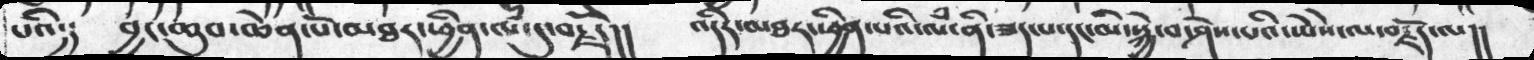པའི༴༴   བྱང་ཆུབ་ཆེན་པོ་མཐར་ཕྱིན་ལཾ་དུ་བརྗོདེ།།  འདིར་མཐར་ཕྱིན་པའི་ལཾ་ནི་ཟད་པ་དང་མི་སྐྱེ་བ་ཤེས་པའི་ཡེསེ་ལ་བརྗོད་ལ།།
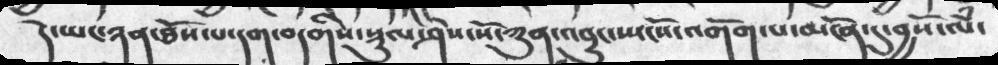དེ་ཡང་ཉན་ཐོས་པ་དག་བདགིས་སྟུལ་ཤེས་སོ་ཀུན་འབྱུང་ཡོངས་འགོག་པ་མངོན་དུ་བྱསོ་ལཾ་
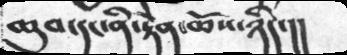ཆུབ་དང་ནི་རྟེན་ཆོས་ཉིད་།།
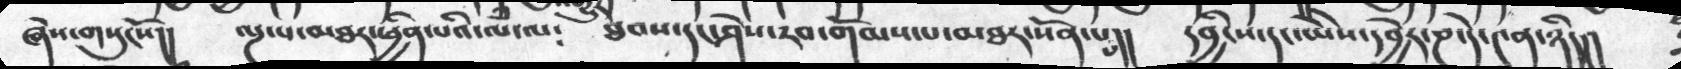ཞེས་གསངསོ།།  ལྔ་པ་མཐར་ཕྱིན་པའི་ལཾ་ལ༴  ཐབས་དང་ཤེས་རབ་གོམས་པ་མཐར་སོན་པས།།  དབྱིངས་དང་ཡེེས་དབྱེར་ཎ་དེ་༤ན་ཉིད།།
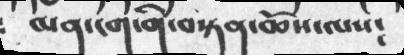མན་ངག་གི་བསྟན་ཆོས་ལས༴
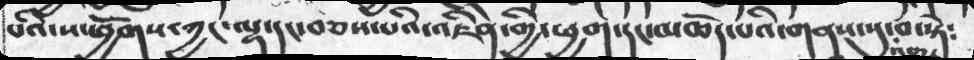པའི་ས་ཕྱོགས་ཀྱང་ལྷ་དང་བཅས་པའི་འཇིེན་གྱི་ཕྱག་དང་མཆོད་པའི་གནས་སུ་འགྱུར་བ་སྟེ༴
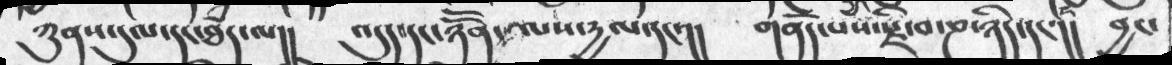ཀུནས་དུལ་དང་ཐཾད་ལ།།  འདུད་དང་ཉོོན་ལས་དྱལ་དང་།།  གནོད་པས་རྫི་བ་ཎ་ཉིད་དང་།།  བྱང་
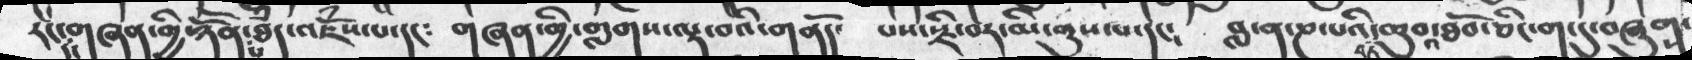རང་དང་གཞན་གྱི་ཉོན་པ་ཐཾད་འཇོཾས་པ་དང༴  གཞན་གྱི་གླགས་ལྟ་བའི་གནོད་  པས་རྫི་བར་མི་ནུས་པ་དང༴  བླ་ན་ཎ་པའི་བྱང་ཆུབ་འཐོབ་ཅིང་ག་དུ་བཞུགས་
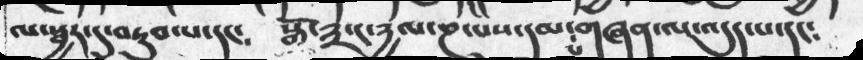ལ་སྦྱར་དུ་བཏུབ་པ་དང༴  སྒོ་༣་ང་དྱལ་ཎ་པས་དམ་པ་གཞན་ལ་འདུད་པ་དང༴
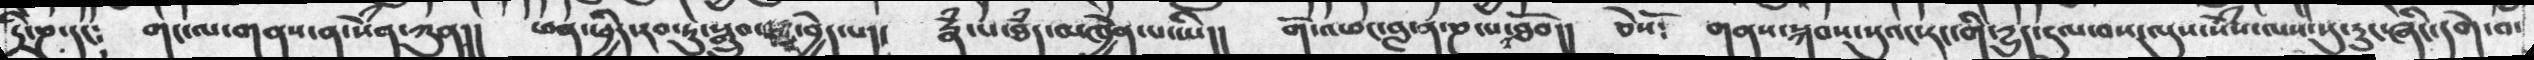དྲི་ཎ་དང༴  གང་ལ་གནས་ན་སེཾན་ཀུན།།  ཕན་ཕྱིར་རབ་ཏུ་སྒྲུབ་པར་བྱེད་པ།།  རྣཾ་པ་ཐཾད་མཁྱེན་པ་ཡི།།  གོ་འཕང་བླ་ན་ཎ་པ་ཐོབ།།  ཅེསོ༴  གནས་སྐབས་སུའང་རང་གི་དྱུད་དུལ་བས་ལུས་སེཾས་ལས་སུ་རུང་ཞིང་དགེ་བ་
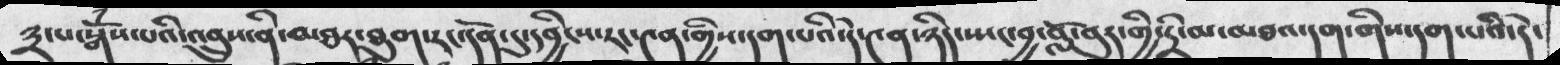༣་པ་སྒོཾས་པའི་འབྲུས་ནི་མཐར་ཐུག་རང་དོན་དུ་དབྱིངས་རང་༤ན་གྱིས་དག་པའི་དེ་༤ན་ཉིད་ཡང་བྱ་བློ་བུར་གྱི་དྲི་མ་མཐའ་དག་གིས་དག་པའི་དེ་
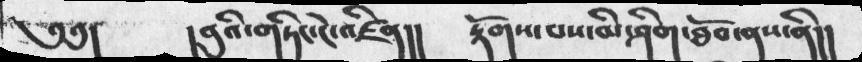༄༅།   ། བུའི་གཏིང་ངེ་འཛིན།།  རྟོགས་པས་མི་ཤིག་ཐོབ་ནས་ནི།།
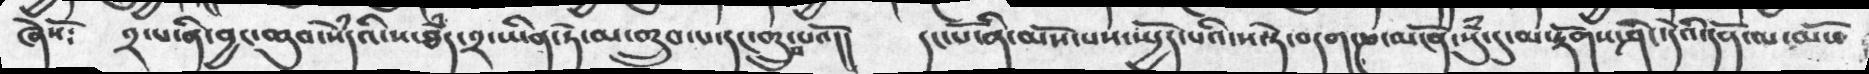ཞེསོ༴  ༢་པ་ནི་བྱང་ཆུབ་སེཾདའི་ས་ཐཾད་༢་ཡིན་ཏེ་མ་གྲུབ་པ་དང་གྲུབ་པའོ།།  དང་པོ་ནི་མོས་པས་སྤྱོད་པའི་ས་དེ་བདག་ཎ་མངོན་སུཾ་དུ་མ་རྟོགས་ཤིང་དེའི་དོན་ལ་མོས
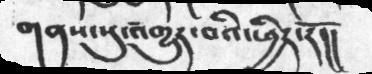གནས་སུ་འགྱུར་བའི་ཕྱིར་རོ།།
